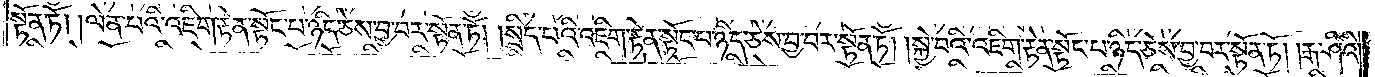སྟོན་ཏོ། །ལེན་བའི་འཇིག་རྟེན་སྟོང་པ་ཉིད་ཅེས་བྱ་བར་སྟོན་ཏོ། །སྲིད་པའི་འཇིག་རྟེན་སྟོང་པ་ཉིད་ཅེས་བྱ་བར་སྟོན་ཏོ། །སྐྱེ་བའི་འཇིག་རྟེན་སྟོང་པ་ཉིད་ཅེས་བྱ་བར་སྟོན་ཏོ། །རྒ་ཤིའི་
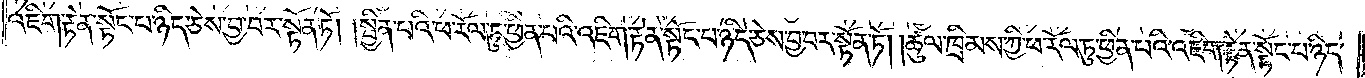འཇིག་རྟེན་སྟོང་པ་ཉིད་ཅེས་བྱ་བར་སྟོན་ཏོ། །སྦྱིན་པའི་ཕ་རོལ་ཏུ་ཕྱིན་པའི་འཇིག་རྟེན་སྟོང་པ་ཉིད་ཅེས་བྱ་བར་སྟོན་ཏོ། །ཚུལ་ཁྲིམས་ཀྱི་ཕ་རོལ་ཏུ་ཕྱིན་པའི་འཇིག་རྟེན་སྟོང་པ་ཉིད་
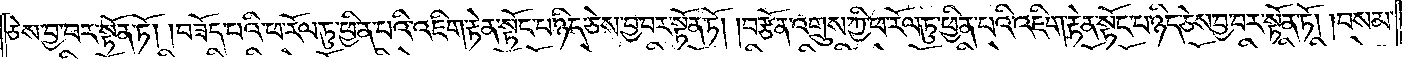ཅེས་བྱ་བར་སྟོན་ཏོ། །བཟོད་པའི་ཕ་རོལ་ཏུ་ཕྱིན་པའི་འཇིག་རྟེན་སྟོང་པ་ཉིད་ཅེས་བྱ་བར་སྟོན་ཏོ། །བརྩོན་འགྲུས་ཀྱི་ཕ་རོལ་ཏུ་ཕྱིན་པའི་འཇིག་རྟེན་སྟོང་པ་ཉིད་ཅེས་བྱ་བར་སྟོན་ཏོ། །བསམ་
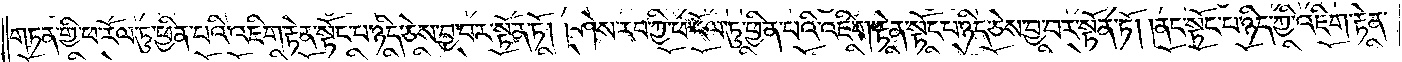གཏན་གྱི་ཕ་རོལ་ཏུ་ཕྱིན་པའི་འཇིག་རྟེན་སྟོང་པ་ཉིད་ཅེས་བྱ་བར་སྟོན་ཏོ། །ཤེས་རབ་ཀྱི་ཕ་རོལ་ཏུ་ཕྱིན་པའི་འཇིག་རྟེན་སྟོང་པ་ཉིད་ཅེས་བྱ་བར་སྟོན་ཏོ། །ནང་སྟོང་པ་ཉིད་ཀྱི་འཇིག་རྟེན་
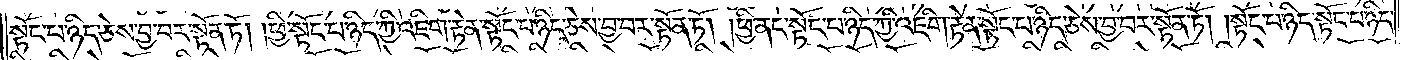སྟོང་པ་ཉིད་ཅེས་བྱ་བར་སྟོན་ཏོ། །ཕྱི་སྟོང་པ་ཉིད་ཀྱི་འཇིག་རྟེན་སྟོང་པ་ཉིད་ཅེས་བྱ་བར་སྟོན་ཏོ། །ཕྱི་ནང་སྟོང་པ་ཉིད་ཀྱི་འཇིག་རྟེན་སྟོང་པ་ཉིད་ཅེས་བྱ་བར་སྟོན་ཏོ། །སྟོང་པ་ཉིད་སྟོང་པ་ཉིད་
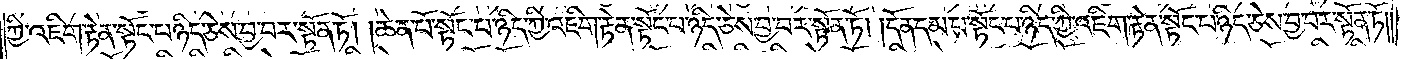ཀྱི་འཇིག་རྟེན་སྟོང་པ་ཉིད་ཅེས་བྱ་བར་སྟོན་ཏོ། །ཆེན་པོ་སྟོང་པ་ཉིད་ཀྱི་འཇིག་རྟེན་སྟོང་པ་ཉིད་ཅེས་བྱ་བར་སྟོན་ཏོ། །དོན་དམ་པ་སྟོང་པ་ཉིད་ཀྱི་འཇིག་རྟེན་སྟོང་པ་ཉིད་ཅེས་བྱ་བར་སྟོན་ཏོ།
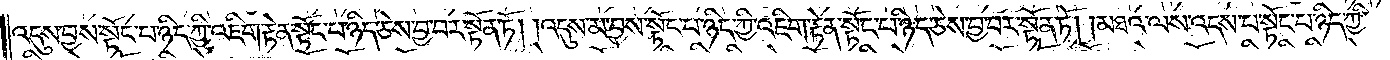འདུས་བྱས་སྟོང་པ་ཉིད་ཀྱི་འཇིག་རྟེན་སྟོང་པ་ཉིད་ཅེས་བྱ་བར་སྟོན་ཏོ། །འདུས་མ་བྱས་སྟོང་པ་ཉིད་ཀྱི་འཇིག་རྟེན་སྟོང་པ་ཉིད་ཅེས་བྱ་བར་སྟོན་ཏོ། །མཐའ་ལས་འདས་པ་སྟོང་པ་ཉིད་ཀྱི་
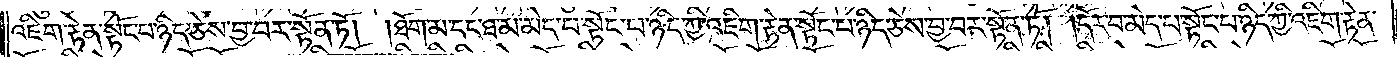འཇིག་རྟེན་སྟོང་པ་ཉིད་ཅེས་བྱ་བར་སྟོན་ཏོ། །ཐོག་མ་དང་ཐ་མ་མེད་པ་སྟོང་པ་ཉིད་ཀྱི་འཇིག་རྟེན་སྟོང་པ་ཉིད་ཅེས་བྱ་བར་སྟོན་ཏོ། །དོར་བ་མེད་པ་སྟོང་པ་ཉིད་ཀྱི་འཇིག་རྟེན་
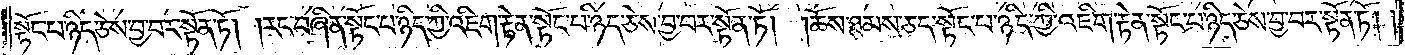སྟོང་པ་ཉིད་ཅེས་བྱ་བར་སྟོན་ཏོ། །རང་བཞིན་སྟོང་པ་ཉིད་ཀྱི་འཇིག་རྟེན་སྟོང་པ་ཉིད་ཅེས་བྱ་བར་སྟོན་ཏོ། །ཆོས་ཐམས་ཅད་སྟོང་པ་ཉིད་ཀྱི་འཇིག་རྟེན་སྟོང་པ་ཉིད་ཅེས་བྱ་བར་སྟོན་ཏོ། །
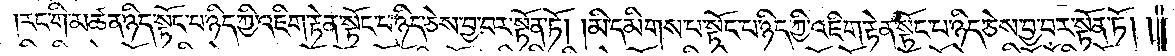རང་གི་མཚན་ཉིད་སྟོང་པ་ཉིད་ཀྱི་འཇིག་རྟེན་སྟོང་པ་ཉིད་ཅེས་བྱ་བར་སྟོན་ཏོ། །མི་དམིགས་པ་སྟོང་པ་ཉིད་ཀྱི་འཇིག་རྟེན་སྟོང་པ་ཉིད་ཅེས་བྱ་བར་སྟོན་ཏོ། །
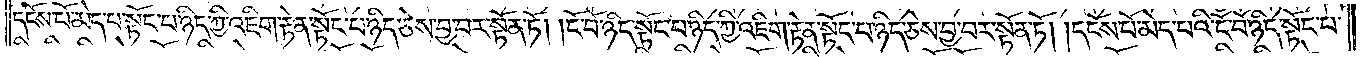དངོས་པོ་མེད་པ་སྟོང་པ་ཉིད་ཀྱི་འཇིག་རྟེན་སྟོང་པ་ཉིད་ཅེས་བྱ་བར་སྟོན་ཏོ། །ངོ་བོ་ཉིད་སྟོང་པ་ཉིད་ཀྱི་འཇིག་རྟེན་སྟོང་པ་ཉིད་ཅེས་བྱ་བར་སྟོན་ཏོ། །དངོས་པོ་མེད་པའི་ངོ་བོ་ཉིད་སྟོང་པ་
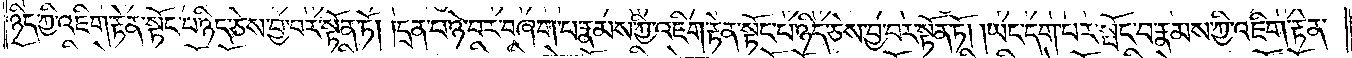ཉིད་ཀྱི་འཇིག་རྟེན་སྟོང་པ་ཉིད་ཅེས་བྱ་བར་སྟོན་ཏོ། །དྲན་པ་ཉེ་བར་བཞག་པ་རྣམས་ཀྱི་འཇིག་རྟེན་སྟོང་པ་ཉིད་ཅེས་བྱ་བར་སྟོན་ཏོ། །ཡང་དག་པར་སྤོང་བ་རྣམས་ཀྱི་འཇིག་རྟེན་
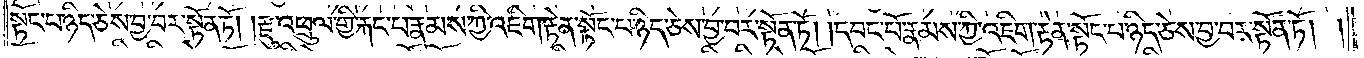སྟོང་པ་ཉིད་ཅེས་བྱ་བར་སྟོན་ཏོ། །རྫུ་འཕྲུལ་གྱི་རྐང་པ་རྣམས་ཀྱི་འཇིག་རྟེན་སྟོང་པ་ཉིད་ཅེས་བྱ་བར་སྟོན་ཏོ། །དབང་པོ་རྣམས་ཀྱི་འཇིག་རྟེན་སྟོང་པ་ཉིད་ཅེས་བྱ་བར་སྟོན་ཏོ། །
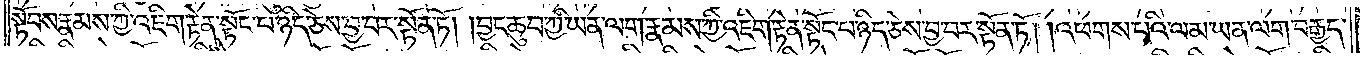སྟོབས་རྣམས་ཀྱི་འཇིག་རྟེན་སྟོང་པ་ཉིད་ཅེས་བྱ་བར་སྟོན་ཏོ། །བྱང་ཆུབ་ཀྱི་ཡན་ལག་རྣམས་ཀྱི་འཇིག་རྟེན་སྟོང་པ་ཉིད་ཅེས་བྱ་བར་སྟོན་ཏོ། །འཕགས་པའི་ལམ་ཡན་ལག་བརྒྱད་
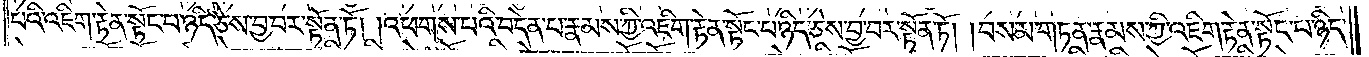པའི་འཇིག་རྟེན་སྟོང་པ་ཉིད་ཅེས་བྱ་བར་སྟོན་ཏོ། །འཕགས་པའི་བདེན་པ་རྣམས་ཀྱི་འཇིག་རྟེན་སྟོང་པ་ཉིད་ཅེས་བྱ་བར་སྟོན་ཏོ། །བསམ་གཏན་རྣམས་ཀྱི་འཇིག་རྟེན་སྟོང་པ་ཉིད་
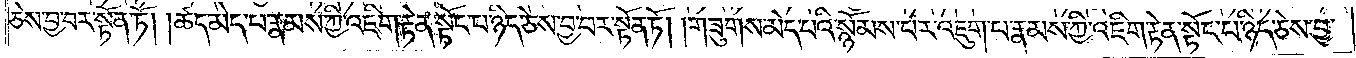ཅེས་བྱ་བར་སྟོན་ཏོ། །ཚད་མེད་པ་རྣམས་ཀྱི་འཇིག་རྟེན་སྟོང་པ་ཉིད་ཅེས་བྱ་བར་སྟོན་ཏོ། །གཟུགས་མེད་པའི་སྙོམས་པར་འཇུག་པ་རྣམས་ཀྱི་འཇིག་རྟེན་སྟོང་པ་ཉིད་ཅེས་བྱ་
